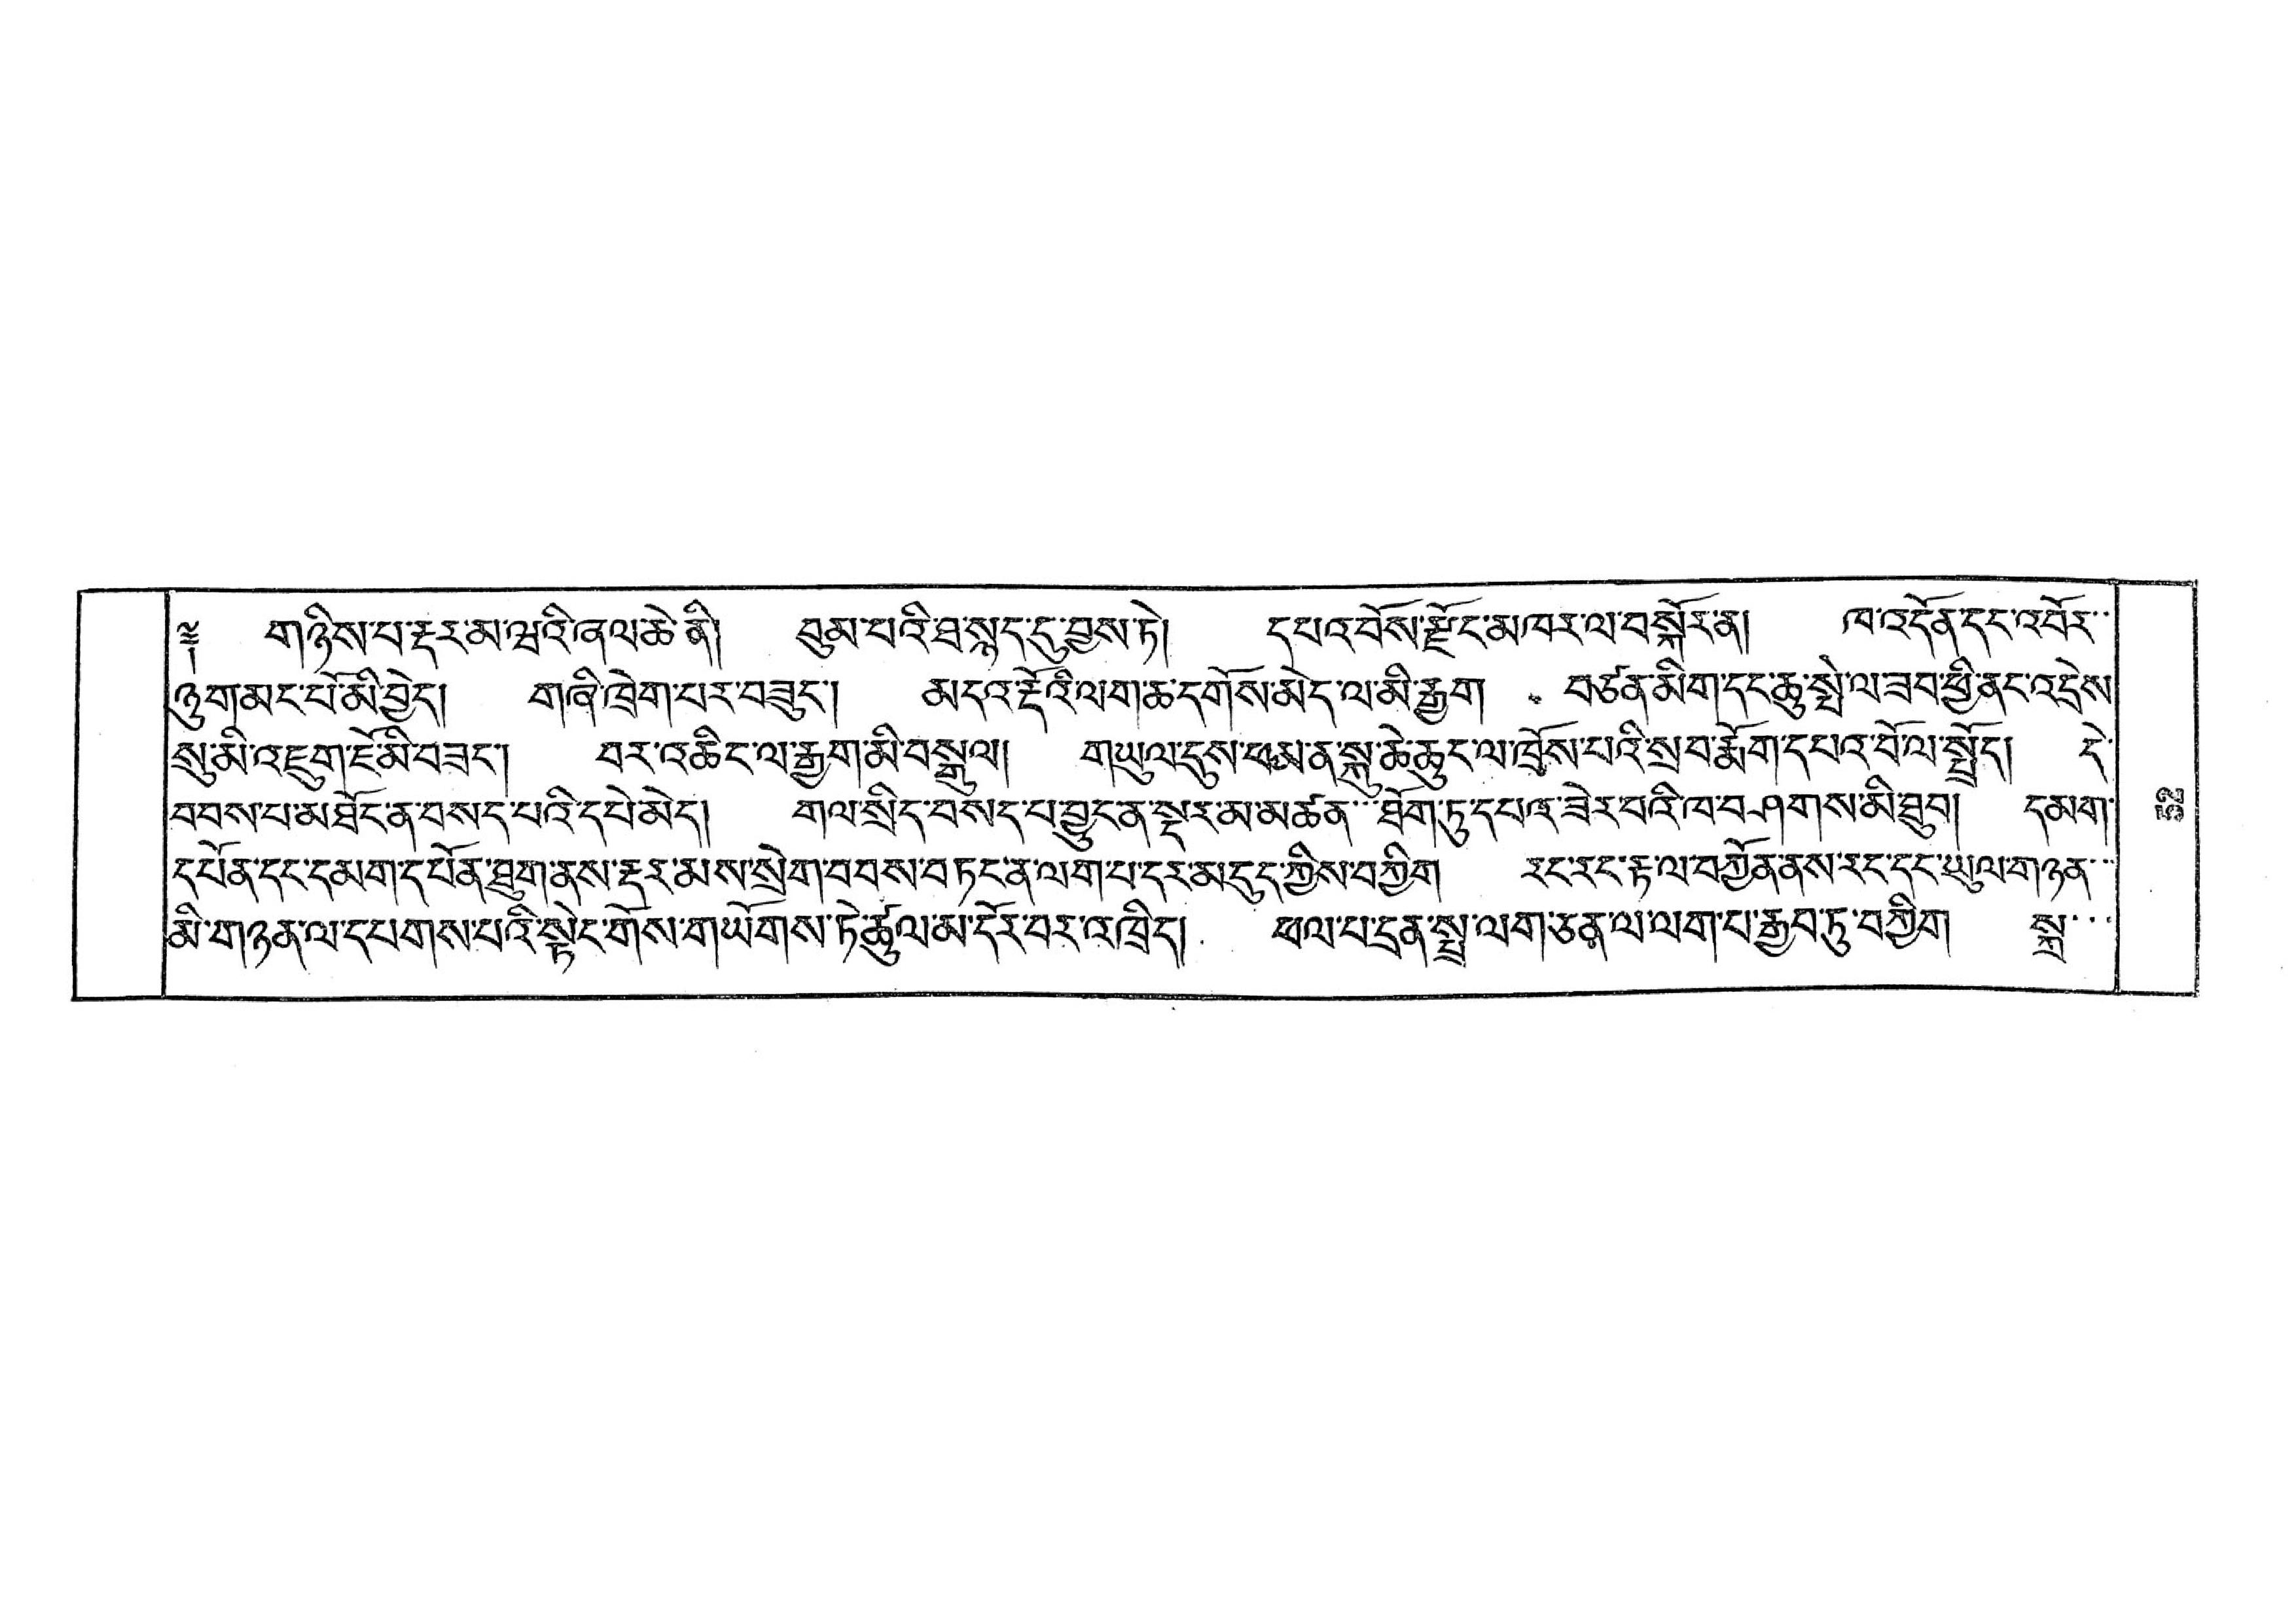༈ གཉིས་པ་རྡར་མ་ཝའི་ནལ་ཆེ་ནི། བུམ་པའི་ཐ་སྙད་དུ་བྱས་ཏེ། དཔའ་བོས་རྫོང་མཁར་ལ་བསྐོར་ན། ཁ་འདོན་དང་འབོར་་
ཉུག་མང་པོ་མི་བྱེད། གཞི་ཁྲེག་པར་བཟུང་། མདའ་རྡོའི་ལག་ཆ་དགོས་མེད་ལ་མི་རྒྱག  བཙན་མིག་དང་ཆུ་སྤེལ་ཟབ་ཕྱི་ནང་འདྲེས་
སུ་མི་འཇུག་ཇོ་མི་བཟང་། བར་འཆིང་ལ་རྒྱག་མི་བསྒུལ། གཡུལ་དུས་ཕམ་ན་སྐུ་ཆེ་ཆུང་ལ་ཁྲོས་པའི་སྲབ་རྨོག་དཔའ་བོ་ལ་སྤྲོད། དེ་
བབས་པ་མཐོང་ན་བསད་པའི་དཔེ་མེད། གལ་སྲིད་བསད་པ་བྱུང་ན་སྡར་མ་མཚན་་་ཐོག་ཏུ་དཔའ་ཟེར་བའི་ཁ་བཤགས་མི་ཐུབ། དམག་
དཔོན་དང་དམག་དཔོན་ཐུག་ནས་རྡར་མས་སྲེག་བབས་བཏང་ན་ལག་པ་དར་མདུད་ཀྱིས་བཀྱིག  རང་རང་རྟ་ལ་བཀྱོན་ནས་རང་དང་ཡུལ་གཉན་་་
མི་གཉན་ལ་དཔགས་པའི་སྟེང་གོས་གཡོགས་ཏེ་ཚུལ་མ་དོར་བར་འཁྲིད། ཕལ་པ་དྲན་སྤྲ་ལག་ཅན་ལ་ལག་པ་རྒྱབ་ཏུ་བཀྱིག  སྐྲ་་་
